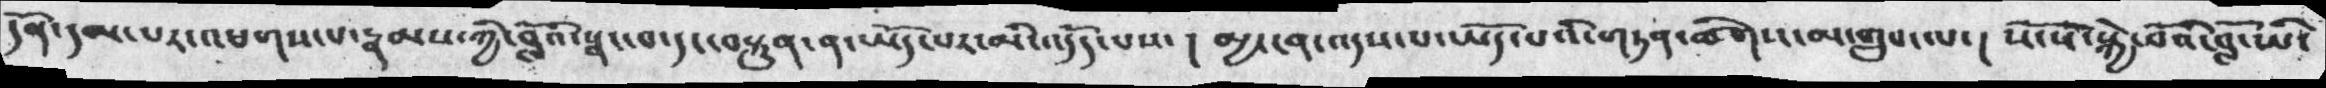དོན་དམ་པར་འཕགས་པ་རྣམས་ཀྱི་བློའི་སྣང་བ་དང་བསྟུན་ན་ཡོད་པར་མི་འདོད་པས་། མྱ་ངན་འདས་པ་ཡོད་པའི་གཏན་ཚིགས་མ་གྲུབ་ལ་། སོ་སོ་སྐྱེ་བོའི་བློ་ཡི་
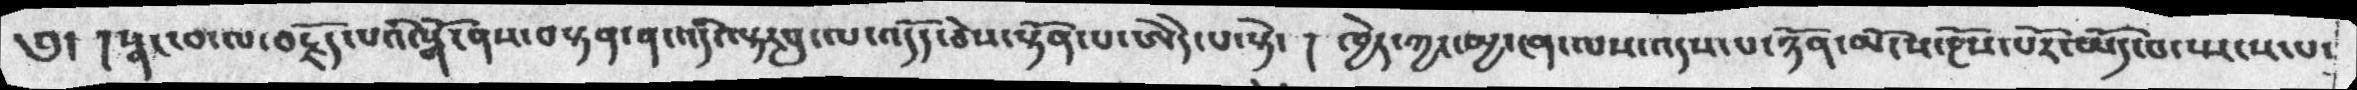༅། །སྣང་བ་ལ་བརྗོད་པའི་སྒོ་ནས་བསྟན་ན་འདི་ལྟར་བུ་ལ་འདོད་ཅེས་སྟོན་པ་ཨེདེ་པ་སྟེ་།  ཁྱེད་ཀྱང་མྱ་ངན་ལས་འདས་པ་ཉོན་མོངས་རྔོས་པོར་ཡོད་པ་སྤངས་པ་
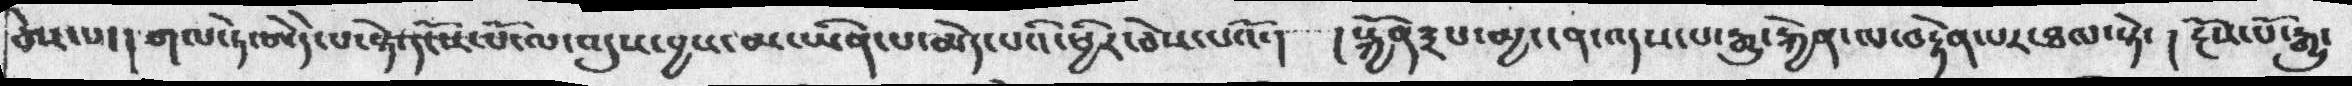ཅེས་པ་། གལ་ཏེ་ཨེདེ་པ་སྟེ་དངོས་པོ་ལ་འདུས་བྱས་མ་ཡིན་པ་མེད་པའི་ཕྱིར་ཅེས་པའོ་།  །སྐྱོན༣པ་མྱ་ངན་འདས་པ་རྒྱུ་རྐྱེན་ལ་བརྟེན་པར་ཐལ་སྟེ་། རྔོས་པོ་རྒྱུ་
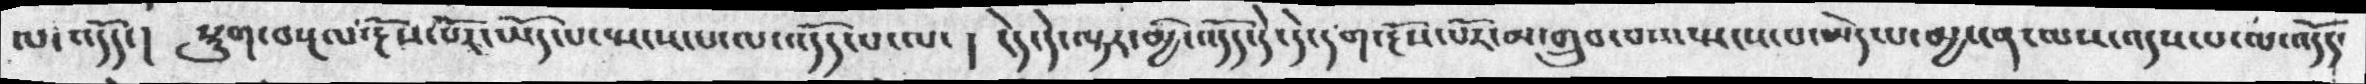ལ་འདོད་།  སྡུག་བསྔལ་རྔོས་པོར་ཡོད་པ་སྤངས་པ་ལ་འདོད་པ་ལ་། ངེད་དེ་ལྟར་མྱི་འདོད་དེ་དེ་དག་རྔོས་པོར་མ་གྲུབ་པས་སྤངས་པ་མེད་པ་མྱ་ངན་ལས་འདས་པ་ལ་འདོད་
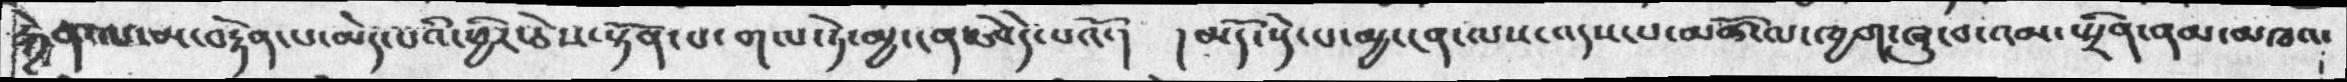རྐྱེན་ལ་མ་བརྟེན་པ་མེད་པའི་ཕྱིར་ཅེས་སྟོན་པ་གལ་ཏེ་མྱ་ངན་ཨེདེ་པའོ་། །མདོ་སྡེ་པ་མྱ་ངན་ལས་འདས་པ་མཚོ་ལ་ཁྱག་ཞུ་བ་འམ་སྤྲིན་ནམ་མཁའ་
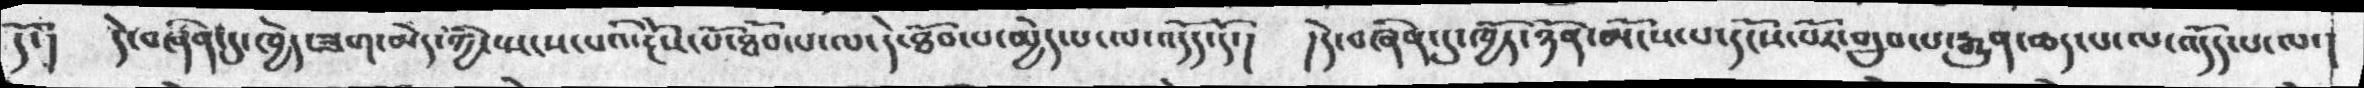དོ་།  དེ་བཞིན་དུ་ཁྱེད་ཟག་མེད་ཀྱི་སྤངས་པའི་རྔོས་པོ་ཐོབ་པ་ལ་དེ་ཐོབ་པ་མྱེད་པ་ལ་འདོད་དོ་།  །དེ་བཞིན་དུ་ཁྱོད་ཉོན་མོངས་པ་དངོས་པོར་གྲུབ་པ་རྒྱུན་ཆད་པ་ལ་འདོད་པ་ལ་།
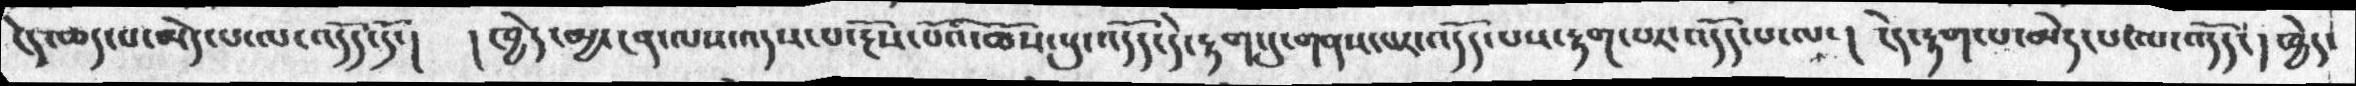ངེད་ཆད་པ་མེད་པ་ལ་འདོད་དོ་།  །ཁྱེད་མྱ་ངན་ལས་འདས་པ་རྔོས་པོའི་ཆོས་སུ་འདོད་དེ་རྟག་དུ་གནས་པར་འདོད་པས་རྟག་པར་འདོད་པ་ལ་། ངེད་རྟག་པ་མེད་པ་ལ་འདོད་། ཁྱེད་
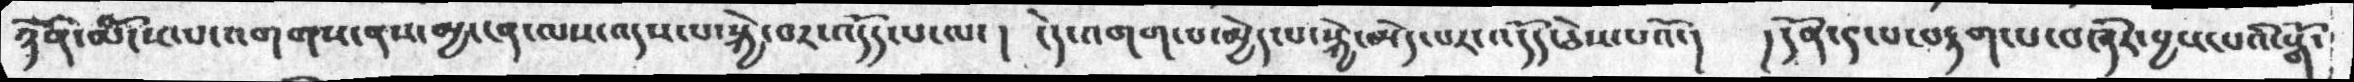ཉོན་མོངས་པ་འགགས་ནས་མྱ་ངན་ལས་འདས་པ་སྐྱེ་བར་འདོད་པ་ལ་།  །དེ་འགག་པ་མྱེད་པ་སྐྱེ་མེད་པར་འདོད་ཅེས་པའོ་། །དོན་༩་པ་བརྟག་པ་བཞིར་བྱས་པའི་སྒོ་
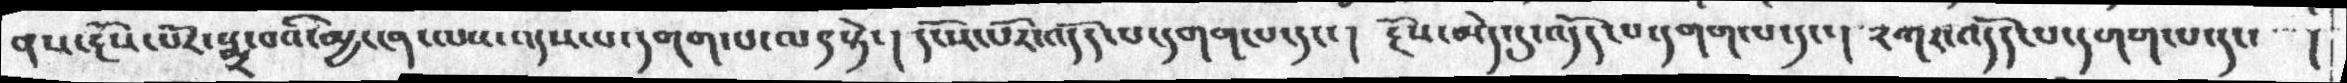ནས་རྔོས་པོར་སྨྲ་བའི་མྱ་ངན་ལས་འདས་པ་དགག་པ་ལ༩སྟེ་།   དངོས་པོར་འདོད་པ་དགག་པ་དང་ ། རྔོས་མེད་དུ་འདོད་པ་དགག་པ་དང་། ༢གར་འདོད་པ་དགག་པ་དང་  །
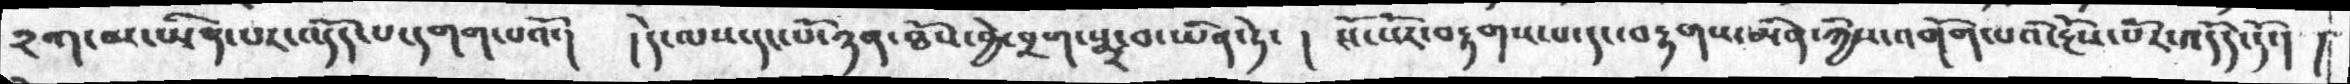༢ག་མ་ཡིན་པར་འདོད་པ་དགག་པའོ་།  །དེ་ལས་དང་པོ་ཉན་ཐོས་བྱེ་བྲག་སྨྲ་བ་ཡིན་ཏེ་ ། སོ་སོར་བརྟགས་པ་དང་བརྟགས་མིན་ཀྱིས་འགོག་པའི་རྔོས་པོར་འདོད་དོ་།  །
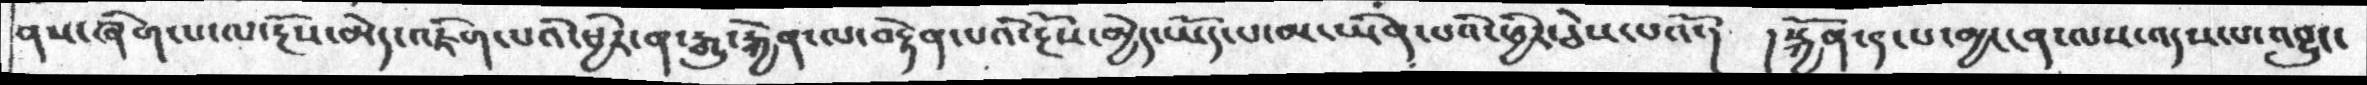ནས་ཞིག་པ་ལ་རྔོས་མེད་འཇོག་པའི་ཕྱིར་ན་རྐྱུ་རྐྱེན་ལ་བརྟེན་པའི་རྔོས་མྱེད་ཡོད་པ་མ་ཡིན་པའི་ཕྱིར་ཅེས་པའོ་།   ། སྐྱོན་༩་པ་མྱ་ངན་ལས་འདས་པ་འབྱུང་
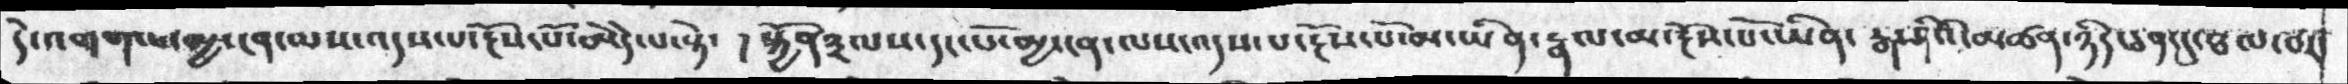དེ་འགག་པ་མྱ་ངན་ལས་འདས་པ་རྔོས་པོ་ཨེདེ་པ་སྟེ་    །སྐྱོན༣ལས་དང་པོ་མྱ་ངན་ལས་འདས་པ་རྔོས་པོ་མ་ཡིན་རྣམ་མ་རྔོས་པོ་ཡིན་  རྒ་ཤིའི་མཚན་ཉིད་ཅན་དུ་ཐལ་བར་
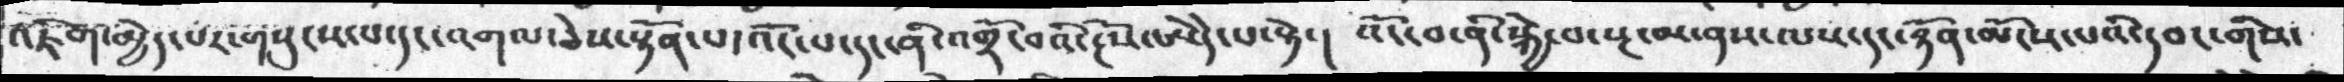འཇིག་མྱེད་པར་གསུངས་པ་དང་འགལ་ཅེས་སྟོན་པ་འོང་པ་དང་འགྲོ་བའི་རྔོས་ཨེདེ་པ་སྟེ་།  འོང་བ་ནི་སྐྱེ་བ་སྔ་མ་ནས་ལས་དང་ཉོན་མོངས་པའི་དབང་གིས་
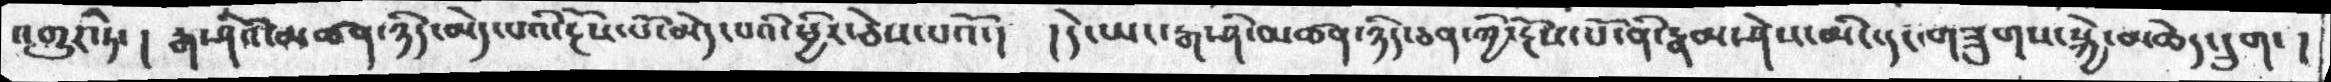འགྱུར་ཏེ་། རྒ་ཤིའི་མཚན་ཉིད་མེད་པའི་རྔོས་པོ་མེད་པའི་ཕྱིར་ཅེས་པའོ་།  །དེ་ཡང་རྒ་ཤི་མཚན་ཉིད་ཅན་ཀྱི་རྔོས་པོ་ནི་རྣམ་ཤེས་མིང་དང་གཟུགས་སྐྱེ་མཆེད་དྲུག་།
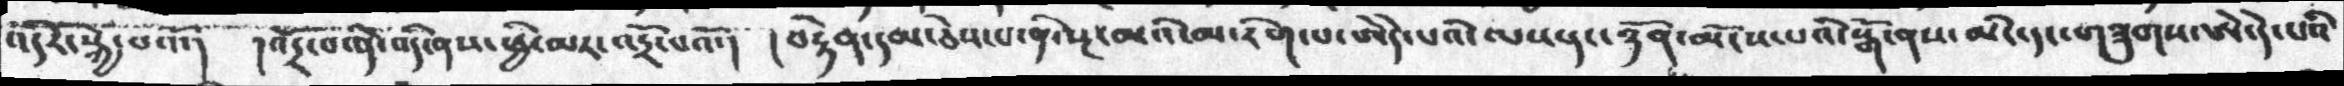འདིར་སྐྱེ་བའོ་།  །འདྲོ་བ་ནི་འདི་ནས་ཕྱི་མར་འདྲོ་པའོ་།  །བརྟེན་དམ་ཅེས་པ་ནི་སྔ་མའི་མ་རིག་པ་ཨེདེ་པའི་ལས་དང་ཉོན་མོངས་པའི་སྒོ་ནས་མིང་དང་གཟུགས་ཨེ་དེ་པའི
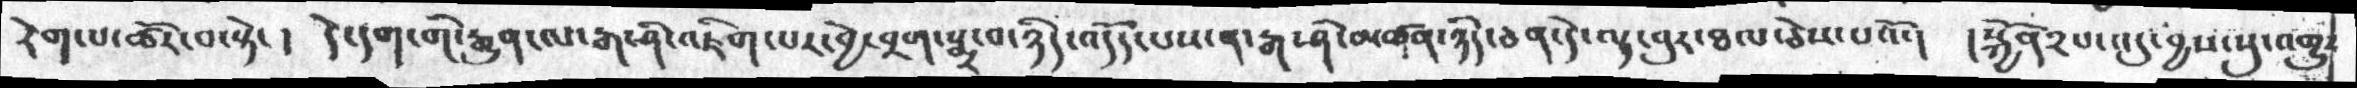རེག་པ་ཚོར་བ་སྟེ་།  དེ་དག་གི་རྒྱུན་ལ་རྒ་ཤི་འཇིག་པར་བྱེ་བྲག་སྨྲ་བ་ཉིད་འདོད་པས་ན་རྒ་ཤི་མཚན་ཉིད་ཅན་དེ་ལྟ་བུར་ཐལ་ཅེས་པའོ་།  །སྐྱོན༢པ་འདུ་བྱས་སུ་འགྱུར
